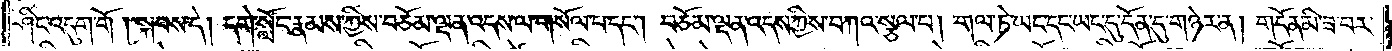ཤིང་འདུག་གོ །སྐབས་དེ། དགེ་སློང་རྣམས་ཀྱིས་བཅོམ་ལྡན་འདས་ལ་གསོལ་པ་དང༌། བཅོམ་ལྡན་འདས་ཀྱིས་བཀའ་སྩལ་པ། གལ་ཏེ་ཡང་དང་ཡང་དུ་དོན་དུ་གཉེར་ན། གདོན་མི་ཟ་བར་
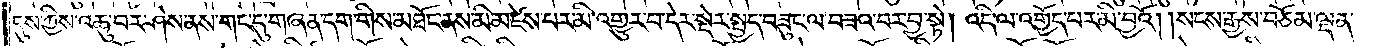དུས་ཀྱིས་འཆུ་བར་ཤེས་ནས་གང་དུ་གཞན་དག་གིས་མཐོང་ནས་མི་མཛེས་པར་མི་འགྱུར་བ་དེར་སྡེར་སྤྱད་བཟུང་ལ་བཟའ་བར་བྱ་སྟེ། འདི་ལ་འགྱོད་པར་མི་བྱའོ། །སངས་རྒྱས་བཅོམ་ལྡན་
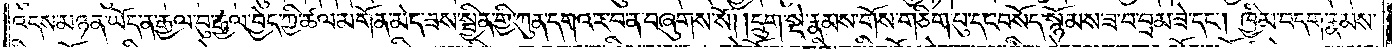འདས་མཉན་ཡོད་ན་རྒྱལ་བུ་རྒྱལ་བྱེད་ཀྱི་ཚལ་མགོན་མེད་ཟས་སྦྱིན་གྱི་ཀུན་དགའ་ར་བ་ན་བཞུགས་སོ། །དྲུག་སྡེ་རྣམས་གོས་གཅིག་པུ་དང་བསོད་སྙོམས་ཟ་བ་བྲམ་ཟེ་དང༌། ཁྱིམ་བདག་རྣམས་
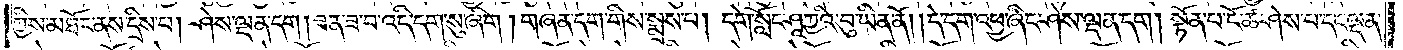ཀྱིས་མཐོང་ནས་དྲིས་པ། ཤེས་ལྡན་དག །ཟན་ཟ་བ་འདི་དག་སུ་ཞིག །གཞན་དག་གིས་སྨྲས་པ། དགེ་སློང་ཤཱཀྱའི་བུ་ཡིན་ནོ། །དེ་དག་འཕྱ་ཞིང་ཤེས་ལྡན་དག །སྟོན་པ་ངོ་ཚ་ཤེས་པ་དང་ལྡན་
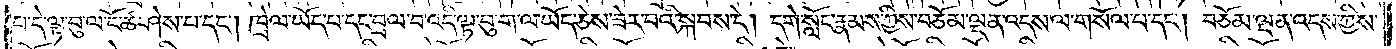པ་དེ་ལྟ་བུ་ལ་ངོ་ཚ་ཤེས་པ་དང༌། ཁྲེལ་ཡོད་པ་དང་བྲལ་བ་འདི་ལྟ་བུ་ག་ལ་ཡོད་ཅེས་ཟེར་བའི་སྐབས་དེ། དགེ་སློང་རྣམས་ཀྱིས་བཅོམ་ལྡན་འདས་ལ་གསོལ་པ་དང༌། བཅོམ་ལྡན་འདས་ཀྱིས་
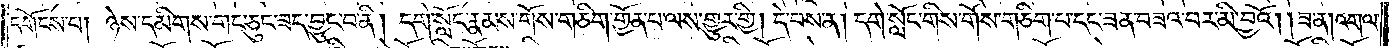དགོངས་པ། ཉེས་དམིགས་གང་ཅུང་ཟད་བྱུང་བ་ནི། དགེ་སློང་རྣམས་གོས་གཅིག་གྱོན་པ་ལས་གྱུར་གྱི། དེ་པས་ན། དགེ་སློང་གིས་གོས་གཅིག་པ་དང་ཟན་བཟའ་བར་མི་བྱའོ། །ཟ་ན། འགལ་
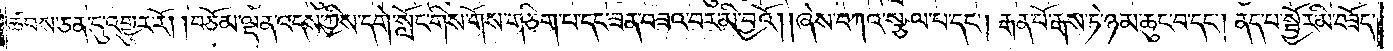ཚབས་ཅན་དུ་འགྱུར་རོ། །བཅོམ་ལྡན་འདས་ཀྱིས་དགེ་སློང་གིས་གོས་གཅིག་པ་དང་ཟན་བཟའ་བར་མི་བྱའོ། །ཞེས་བཀའ་སྩལ་པ་དང༌། རྒན་པོ་རྒས་ཏེ་ཉམ་ཆུང་བ་དང༌། ནད་པ་སྤྱོར་མི་བཟོད་
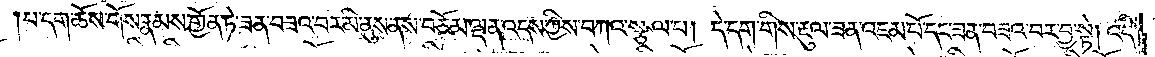པ་དག་ཆོས་གོས་རྣམས་གྱོན་ཏེ་ཟན་བཟའ་བར་མི་ནུས་ནས་བཅོམ་ལྡན་འདས་ཀྱིས་བཀའ་སྩལ་པ། དེ་དག་གིས་རྡུལ་ཟན་འཇམ་པོ་དང་ཟན་བཟའ་བར་བྱ་སྟེ། འདི་
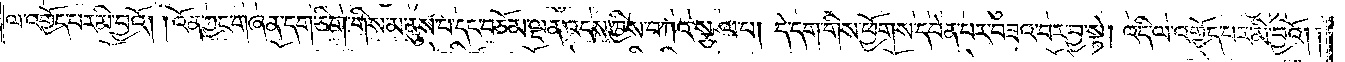ལ་འགྱོད་པར་མི་བྱའོ། །འོན་ཀྱང་གཞན་དག་ཅིག་གིས་མ་ནུས་པ་དང་བཅོམ་ལྡན་འདས་ཀྱིས་བཀའ་སྩལ་པ། དེ་དག་གིས་ཕྱོགས་དབེན་པར་བཟའ་བར་བྱ་སྟེ། འདི་ལ་འགྱོད་པར་མི་བྱའོ། །
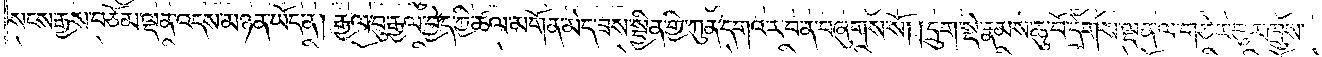སངས་རྒྱས་བཅོམ་ལྡན་འདས་མཉན་ཡོད་ན། རྒྱལ་བུ་རྒྱལ་བྱེད་ཀྱི་ཚལ་མགོན་མེད་ཟས་སྦྱིན་གྱི་ཀུན་དགའ་ར་བ་ན་བཞུགས་སོ། །དྲུག་སྡེ་རྣམས་ཆུ་བོ་དྲེགས་ལྡན་ལ་གཅེར་བུར་ཁྲུས་
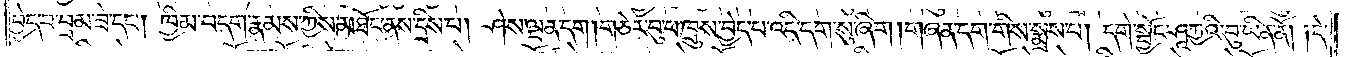བྱེད་པ་བྲམ་ཟེ་དང༌། ཁྱིམ་བདག་རྣམས་ཀྱིས་མཐོང་ནས་དྲིས་པ། ཤེས་ལྡན་དག །གཅེར་བུ་པ་ཁྲུས་བྱེད་པ་འདི་དག་སུ་ཞིག །གཞན་དག་གིས་སྨྲས་པ། དགེ་སྦྱོང་ཤཱཀྱའི་བུ་ཡིན་ནོ། །དེ་
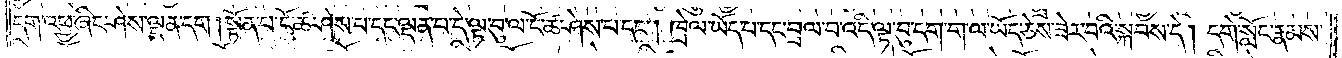དག་འཕྱ་ཞིང་ཤེས་ལྡན་དག །སྟོན་པ་ངོ་ཚ་ཤེས་པ་དང་ལྡན་པ་དེ་ལྟ་བུ་ལ་ངོ་ཚ་ཤེས་པ་དང༌། ཁྲེལ་ཡོད་པ་དང་བྲལ་བ་འདི་ལྟ་བུ་དག་ག་ལ་ཡོད་ཅེས་ཟེར་བའི་སྐབས་དེ། དགེ་སློང་རྣམས་
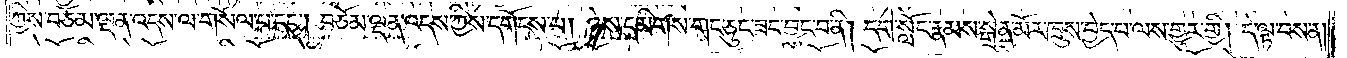ཀྱིས་བཅོམ་ལྡན་འདས་ལ་གསོལ་པ་དང༌། བཅོམ་ལྡན་འདས་ཀྱིས་དགོངས་པ། ཉེས་དམིགས་གང་ཅུང་ཟད་བྱུང་བ་ནི། དགེ་སློང་རྣམས་སྒྲེན་མོར་ཁྲུས་བྱེད་པ་ལས་གྱུར་གྱི། དེ་ལྟ་བས་ན།
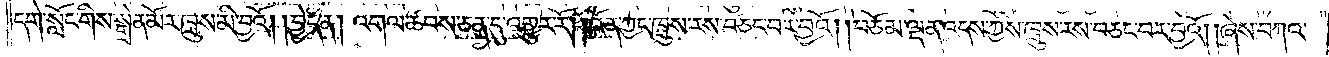དགེ་སློང་གིས་སྒྲེན་མོར་ཁྲུས་མི་བྱའོ། །བྱེད་ན། འགལ་ཚབས་ཅན་དུ་འགྱུར་རོ། །འོན་ཀྱང་ཁྲུས་རས་བཅང་བར་བྱའོ། །བཅོམ་ལྡན་འདས་ཀྱིས་ཁྲུས་རས་བཅང་བར་བྱའོ། །ཞེས་བཀའ་
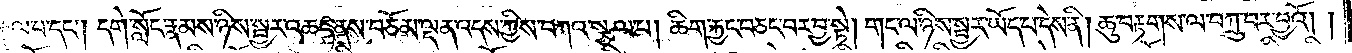སྩལ་པ་དང༌། དགེ་སློང་རྣམས་ཉིས་སྦྱར་འཆང་ནས་བཅོམ་ལྡན་འདས་ཀྱིས་བཀའ་སྩལ་པ། ཆིག་རྐྱང་བཅང་བར་བྱ་སྟེ། གང་ལ་ཉིས་སྦྱར་ཡོད་པ་དེས་ནི། ཆུ་བརྟགས་ལ་བཀྲུ་བར་བྱའོ། །
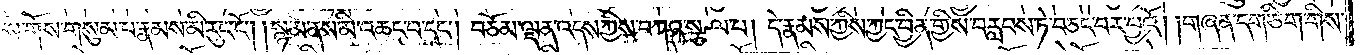ཆོས་གོས་གསུམ་པ་རྣམས་མི་རུང་ངོ༌། །སྙམ་ནས་མི་འཆང་བ་དང༌། བཅོམ་ལྡན་འདས་ཀྱིས་བཀའ་སྩལ་པ། དེ་རྣམས་ཀྱིས་ཀྱང་བྱིན་གྱིས་བརླབས་ཏེ་བཅང་བར་བྱའོ། །གཞན་དག་ཅིག་གིས་
